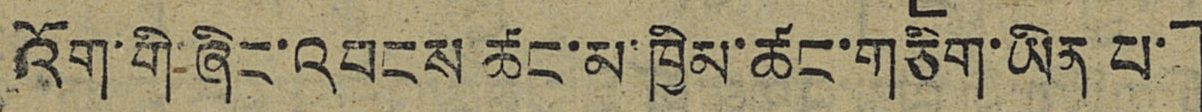འོག་གི་ཞིང་འབངས་ཚང་མ་ཁྱིམ་ཚང་གཅིག་ཡིན་པ་」
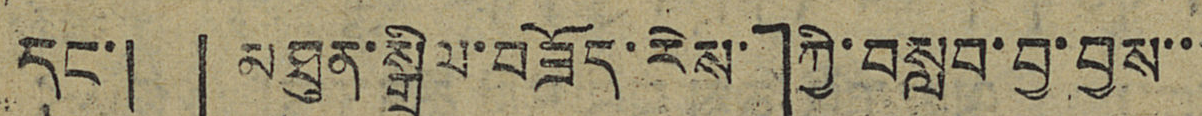དང་། 「མཐུན་སྒྲིལ་བཟོད་རེས་」ཀྱི་བསླབ་བྱ་བྱས་་་
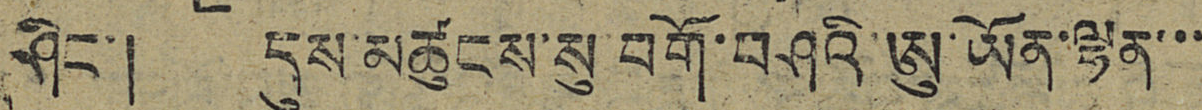ཤིང་། དུས་མཚུངས་སུ བགོ་བཤའི་ཨུ་ཡོན་ལྷན་་་
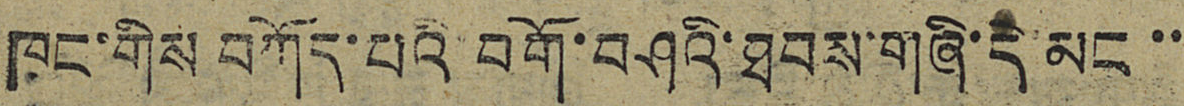ཁང་གིས བཀོད་པའི བགོ་བཤའི་ཐབས་གཞི་དེ་མང་་་
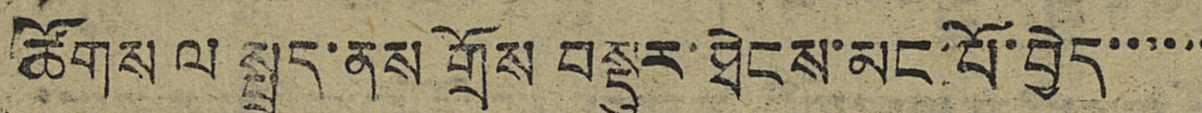ཚོགས ལ སྤྲད་ནས གྲོས བསྡུར་ཐེངས་མང་པོ་བྱེད་་་་་་
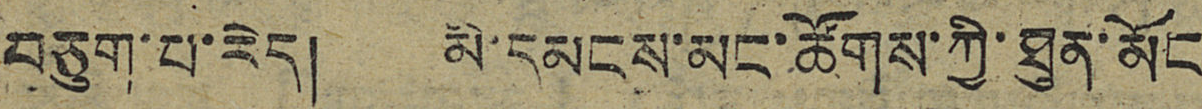བཅུག་པ་རེད། མི་དམངས་མང་ཚོགས་ཀྱི་ཐུན་མོང
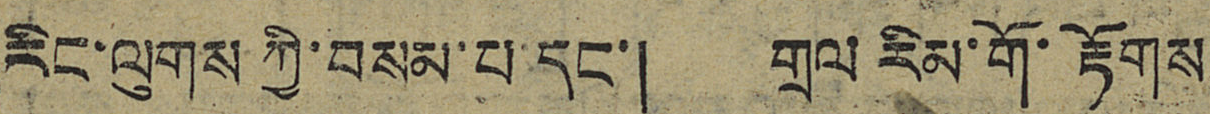རིང་ལུགས ཀྱི་བསམ་པ་དང་། གྲལ་རིམ་གོ་རྟོགས
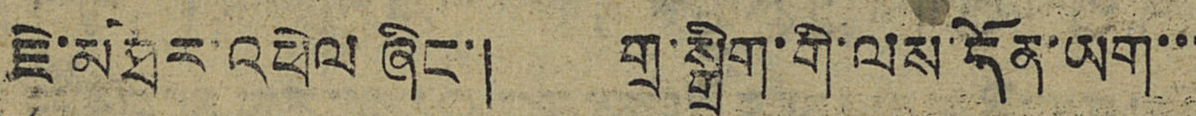ཇེ་མཐོར་འཕེལ ཞིང་། གྲ་སྒྲིག་གི་ལས་དོན་ཡག་་་
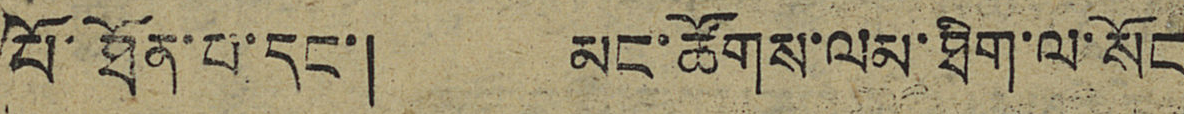པོ་ཐོན་པ་དང་། མང་ཚོགས་ལམ་ཐིག་ལ་སོང
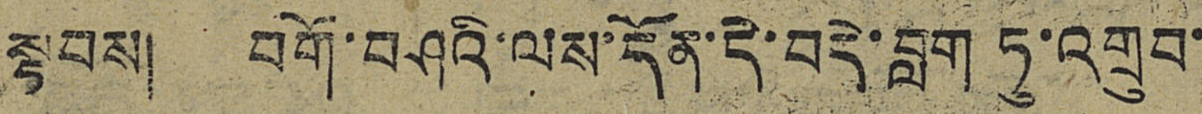སྟབས། བགོ་བཤའི་ལས་དོན་དེ་བདེ་བླག ཏུ་འགྲུབ་
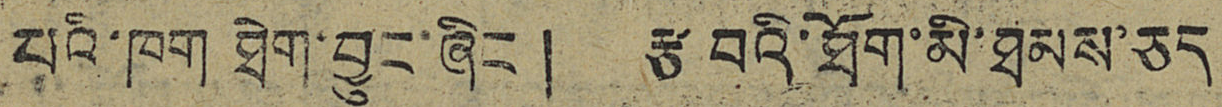པའི་ཁག ཐེག་བྱུང་ཞིང་། རྩ བའི་ཐོག་མི་ཐམས་ཅད
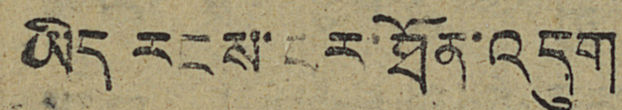ཡིད རངས་པར་ཐོན་འདུག
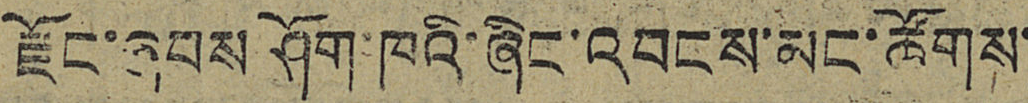རྫོང་ཞབས ཤོག་ཁའི་ཞིང་འབངས་མང་ཚོགས་
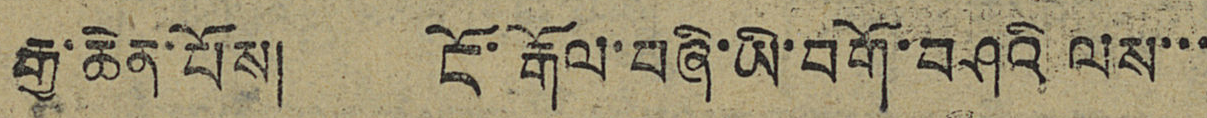རྒྱ་ཆེན་པོས། ངོ་རྒོལ་བཞི་ཡི་བགོ་བཤའི་ལས་་་
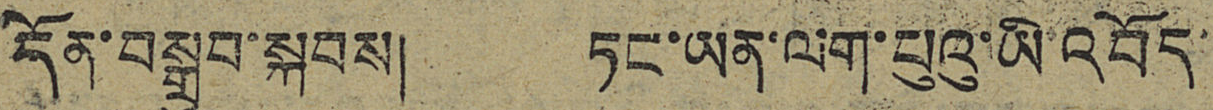དོན་བསྒྲུབ་སྐབས། ཏང་ཡན་ལག་པུའུ་ཡི་འབོད་
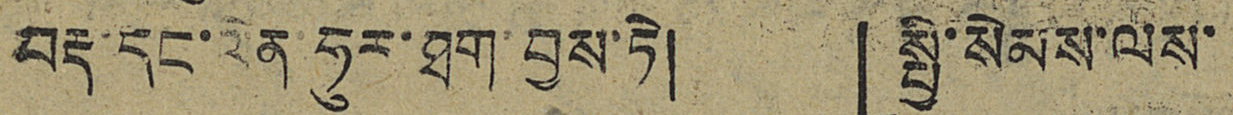བརྡ་དང་ལེན་ཧུར་ཐག་བྱས་ཏེ། 「སྤྱི་སེམས་ལས་
